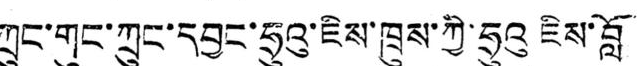ཀྲུང་གུང་ཀྲུང་དབྱང་ཧྲུའུ་ཇིས་ཁྲུས་ཀྱི་ཧྲུའུ ཇིས་བློ
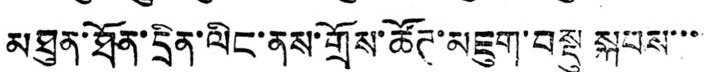མཐུན་ཐོན་དྲིན་ལིང་ནས་གྲོས་ཚོཊ་མཇུག་བསྡུ སྐབས་་་
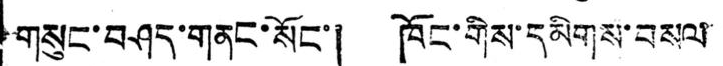གསུང་བཤད་གནང་སོང་། ཁོང་གིས་དམིགས་བསལ
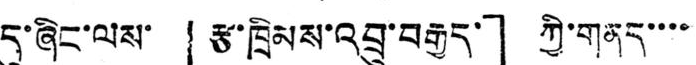དུ་ཞིང་ལས་ 「རྩ་ཁྲིམས་འབྲུ་བརྒྱད་」 ཀྱི་གནད་་་་
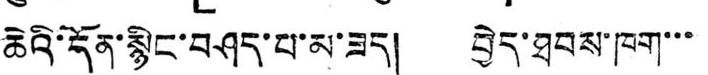ཆེའི་དོན་སྙིང་བཤད་པ་མ་ཟད། བྱེད་ཐབས་ཁག་་་
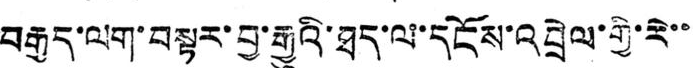བརྒྱད་ལག་བསྟར་བྱ་རྒྱུའི་ཐད་ལ་དངོས་འབྲེལ་གྱི་རེ་་
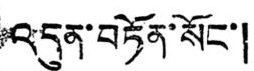འདུན་བཏོན་སོང་།
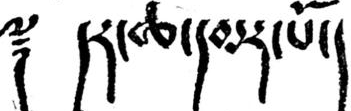༈ དར་ཆ་དམར་པོ།
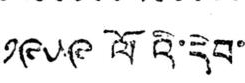༡༩༥༩ ལོའི་དེབ་
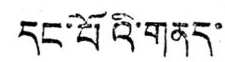དང་པོའི་གནད་
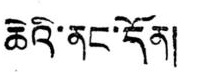ཆེའི་ནང་དོན།
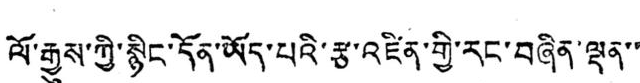ལོ་རྒྱུས་ཀྱི་སྙིང་དོན་ཡོད་པའི་རྩ་འཛིན་གྱི་རང་བཞིན་ལྡན་་
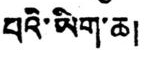པའི་ཡིག་ཆ།
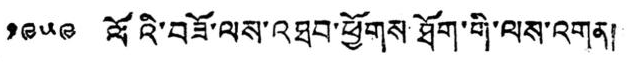༡༩༥༩ ལོའི་བཟོ་ལས་འཐབ་ཕྱོགས་ཐོག་གི་ལས་འགན།
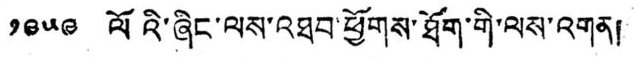༡༩༥༩ ལོའི་ཞིང་ལས་འཐབ་ཕྱོགས་ཐོག་གི་ལས་འགན།
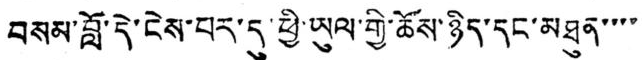བསམ་བློ་དེ་ངེས་བར་དུ་ཕྱི་ཡུལ་གྱི་ཆོས་ཉིད་དང་མཐུན་་་་
